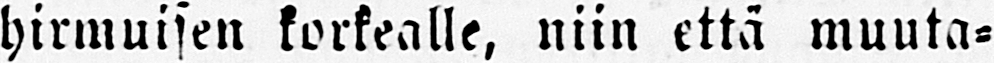hirmuisen korkealle, niin että muuta-
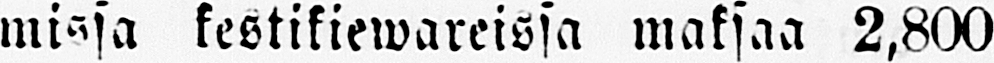missa kestikiewareissa maksaa 2,800
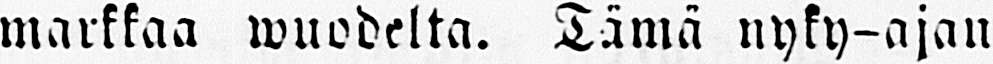markkaa wuodelta. Tämä nyky-ajan
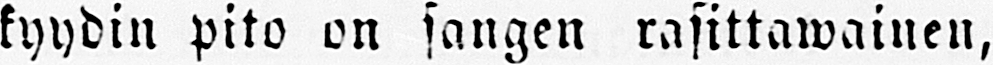kyydin pito on sangen rasittawainen,
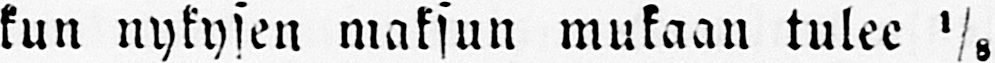kun nykysen maksun mukaan tulee ⅛
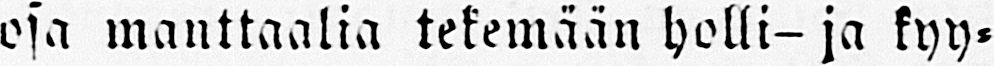osa manttaalia tekemään holli-ja kyy-
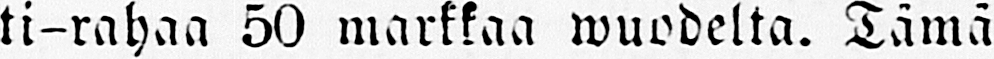ti-rahaa 50 markkaa wuodelta. Tämä
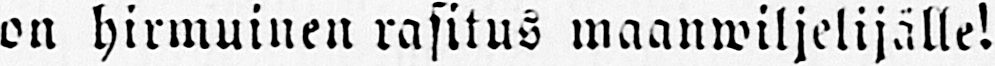on hirmuinen rasitus maanwiljelijälle!
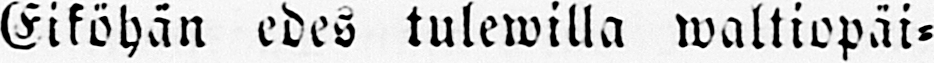Eiköhän edes tulewilla waltiopäi-
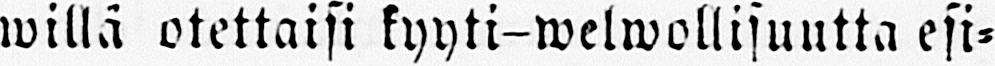willä otettaisi kyyti-welwollisuutta esi-
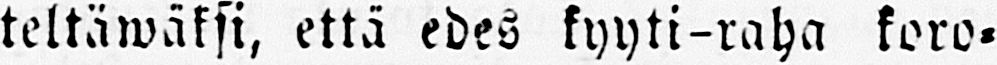tettäwäksi, että edes kyyti-raha koro-
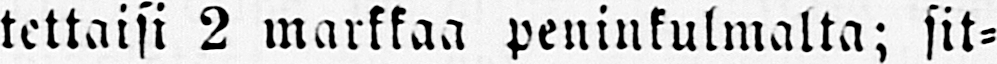tettaisi 2 markkaa peninkulmalta; sit-
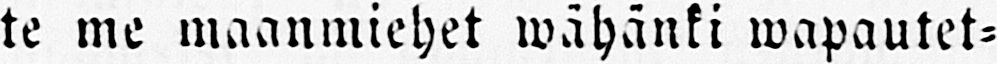te me maanmiehet wähänki wapautet-
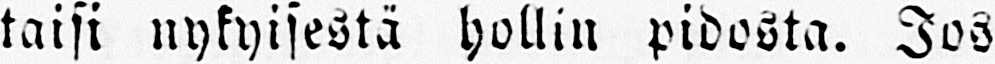taisi nykyisestä hollin pidosta. Jos
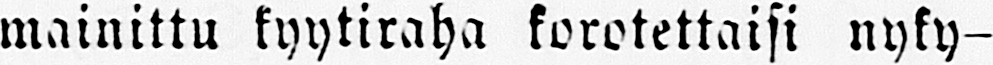mainittu kyytiraha korotettaisi nyky-
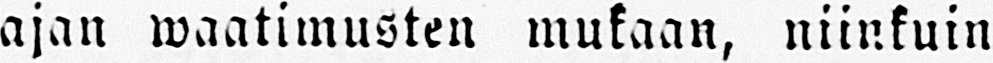ajan waatimusten mukaan, niinkuin
